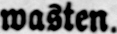wasten.
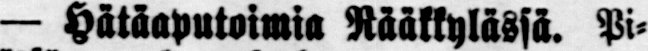— Hätäaputoimia Rääkkylässä. Pi-
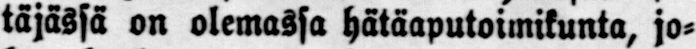täjässä on olemassa hätäaputoimikunta, jo-
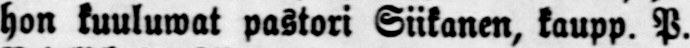hon kuuluwat pastori Siikanen, kaupp. P.
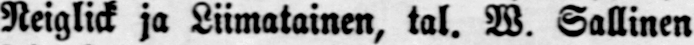Neiglick ja Liimatainen, tal. W. Sallinen
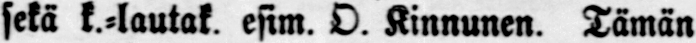sekä k.-lautak. esim. O. Kinnunen. Tämän
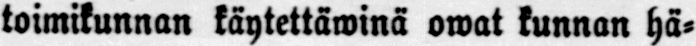toimikunnan käytettäwinä owat kunnan hä-
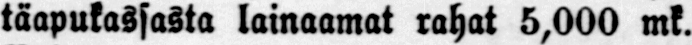täapukassasta lainaamat rahat 5,000 mk.
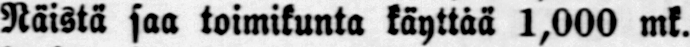Näistä saa toimikunta käyttää 1,000 mk.
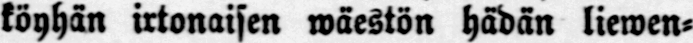köyhän irtonaisen wäestön hädän liewen-
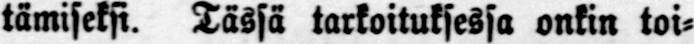tämiseksi. Tässä tarkoituksessa onkin toi-
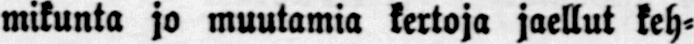mikunta jo muutamia kertoja jaellut keh-
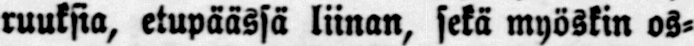ruuksia, etupäässä liinan, sekä myöskin os-
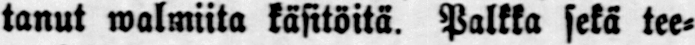tanut walmiita käsitöitä. Palkka sekä tee-
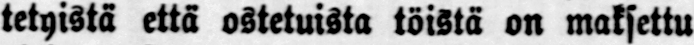tetyistä että ostetuista töistä on maksettu
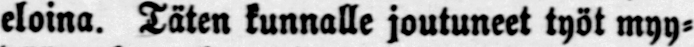eloina. Täten kunnalle joutuneet työt myy-
